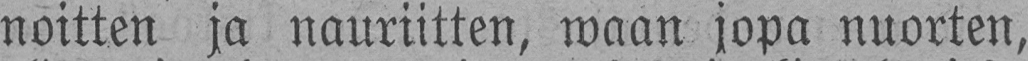noitten ja nauriitten, waan jopa nuorten,
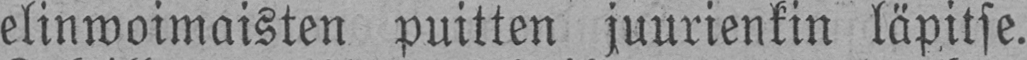elinwoimaisten puitten juurienkin läpitse.
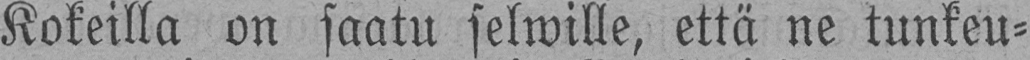Kokeilla on saatu selwille, että ne tunkeu-
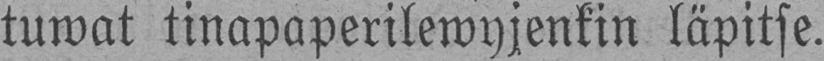tuwat tinapaperilewyjenkin läpitse.
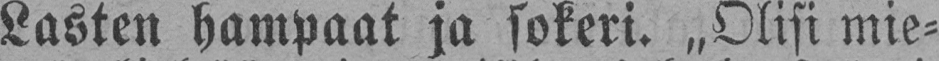Lasten hampaat ja sokeri. „Olisi mie-
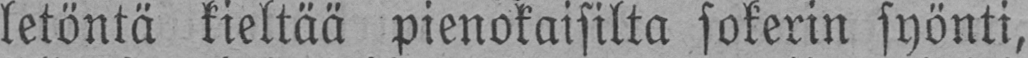letöntä kieltää pienokaisilta sokerin syönti,
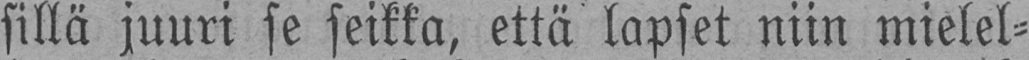sillä juuri se seikka, että lapset niin mielel-
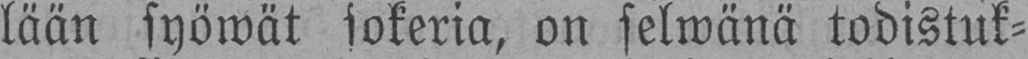lään syöwät sokeria, on selwänä todistuk-
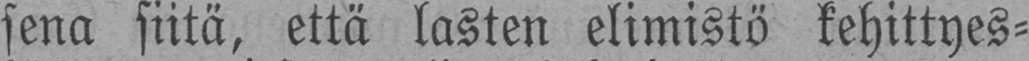sena siitä, että lasten elimistö kehittyes-
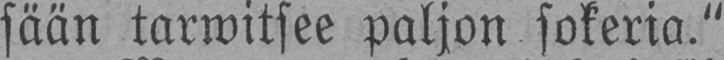sään tarwitsee paljon sokeria."
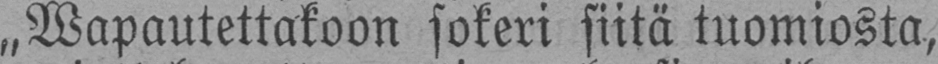„Wapautettakoon sokeri siitä tuomiosta,
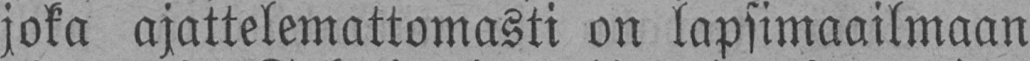joka ajattelemattomasti on lapsimaailmaan
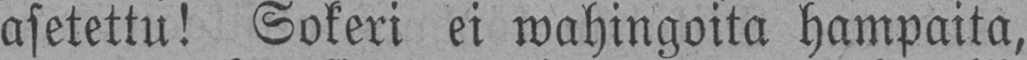asetettu! Sokeri ei wahingoita hampaita,
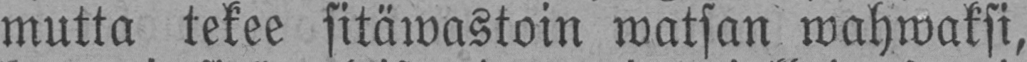mutta tekee sitäwastoin watsan wahwaksi,
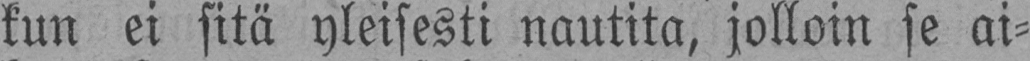kun ei sitä yleisesti nautita, jolloin se ai-
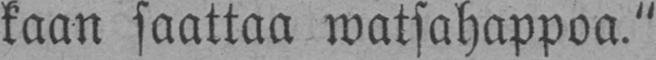kaan saattaa watsahappoa."
